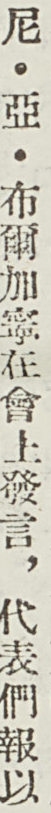尼・亞・布爾加寧在會上發言，代表們報以
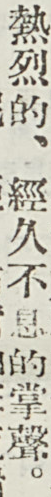熱烈的、經久不息的掌聲。
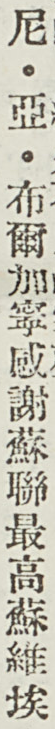尼・亞・布爾加寧感謝蘇聯最高蘇維埃
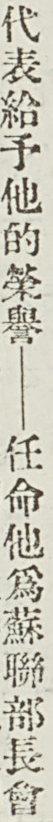代表給予他的榮譽——任命他爲蘇聯部長會
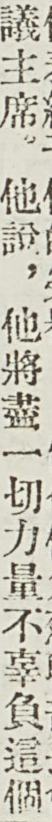議主席。他說，他將盡一切力量不辜負這個
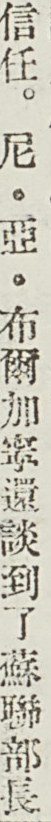信任。尼・亞・布爾加寧還談到了蘇聯部長
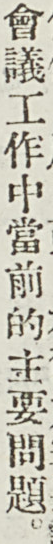會議工作中當前的主要問題。
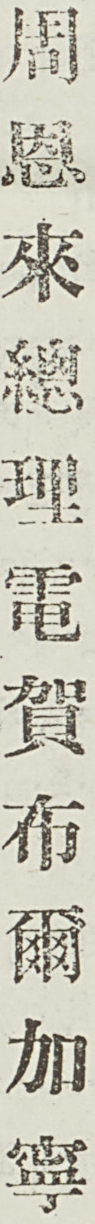周恩來總理電賀布爾加寧
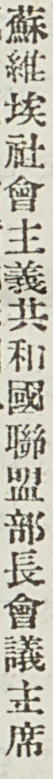蘇維埃社會主義共和國聯盟部長會議主席
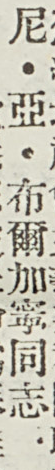尼・亞・布爾加寧同志：
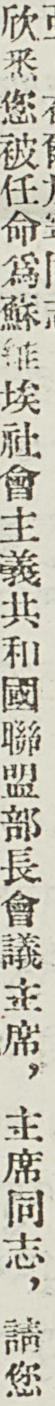欣悉您被任命爲蘇維埃社會主義共和國聯盟部長會議主席，主席同志，請您
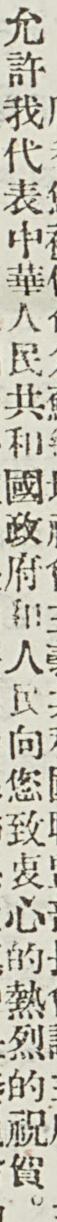允許我代表中華人民共和國政府和人民向您致衷心的熱烈的祝賀。
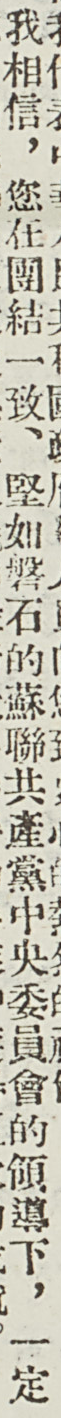我相信，您在團結一致、堅如磐石的蘇聯共產黨中央委員會的領導下，一定
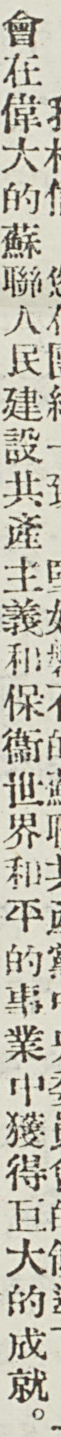會在偉大的蘇聯人民建設共產主義和保衛世界和平的事業中獲得巨大的成就。
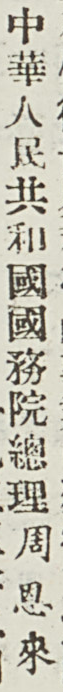中華人民共和國國務院總理周恩來
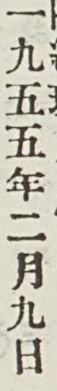一九五五年二月九日
